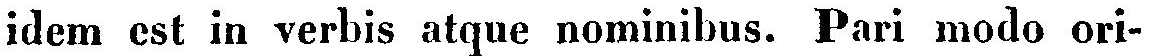idem est in verbis atque nominibus. Pari modo ori-
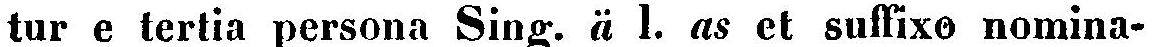tur e tertia persona Sing. ä l. as et suffixo nomina-
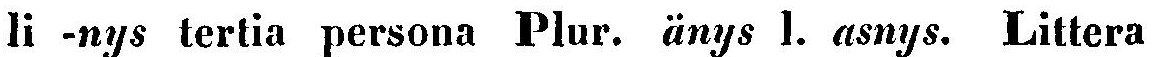li -nys tertia persona Plur. änys l. asnys. Littera
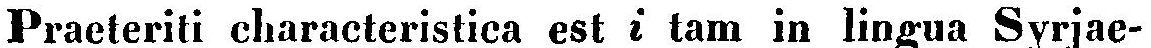Praeteriti characteristica est i tam in lingua Syrjae-
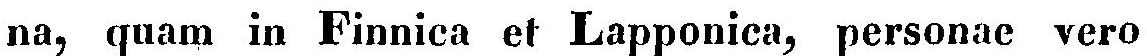na, quam in Finnica et Lapponica, personae vero
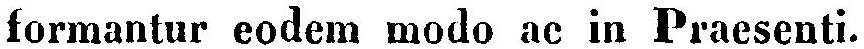formantur eodem modo ac in Praesenti.
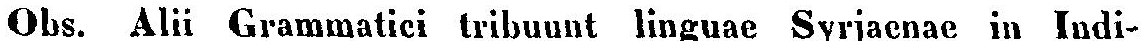Obs. Alii Grammatici tribuunt linguae Syrjaenae in Indi-
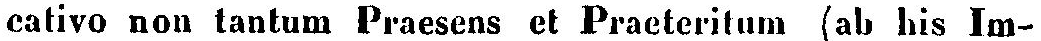cativo non tantum Praesens et Praeteritum (ab his Im-
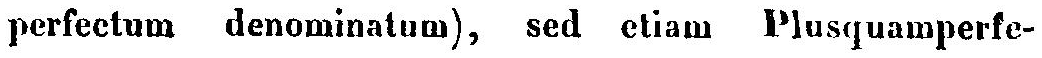perfectum denominatum), sed etiam Plusquamperfe-
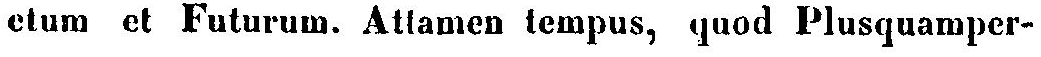ctum et Futurum. Atlamen tempus, quod Plusquamper-
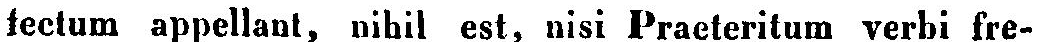fectum appellant, nihil est, nisi Praeteritum verbi fre-
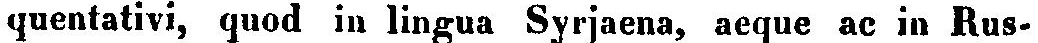quentativi, quod in lingua Syrjaena, aeque ac in Rus-
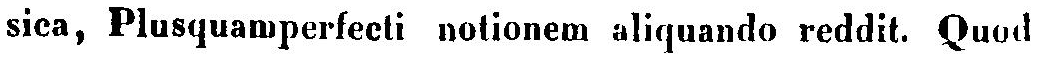sica, Plusquamperfecti notionem aliquando reddit. Quod
